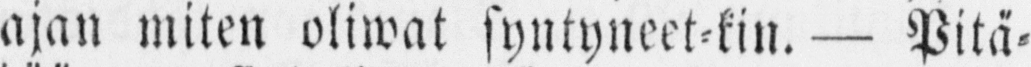ajan miten oliwat syntyneet-kin. — Pitä-
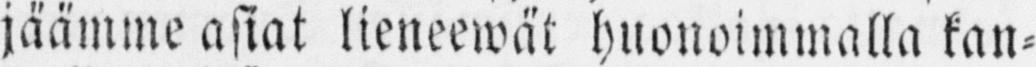jäämme asiat lieneewät huonoimmalla kan-
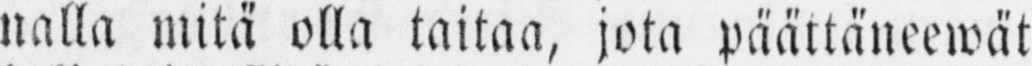nalla mitä olla taitaa, jota päättäneewät
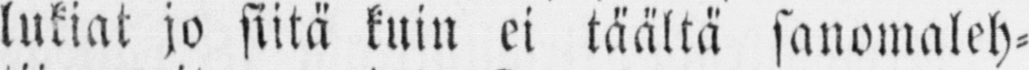lukiat jo siitä kuin ei täältä sanomaleh-
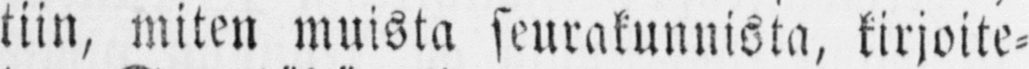tiin, miten muista seurakunnista, kirjoite-
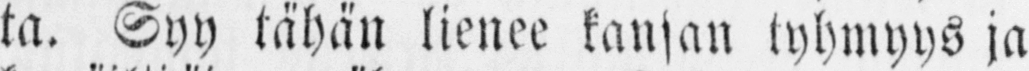ta. Syy tähän lienee kansan tyhmyys ja
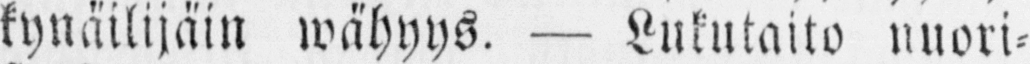kynäilijäin wähyys. — Lukutaito nnori-
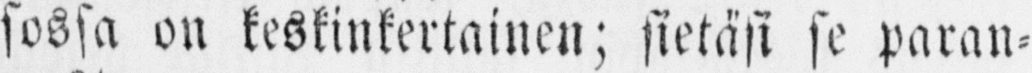sossa on keskinkertainen; sietäsi se paran-
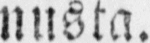nusta.
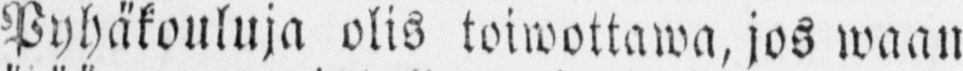Pyhäkouluja olis toiwottawa, jos waan
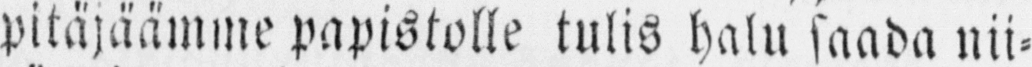pitäjäämme papistolle tulis halu saada nii-
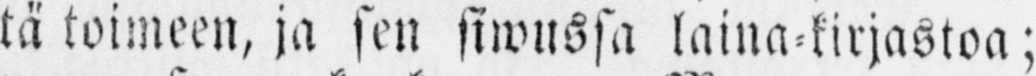tä toimeen, ja sen siwussa laina kirjastoa;
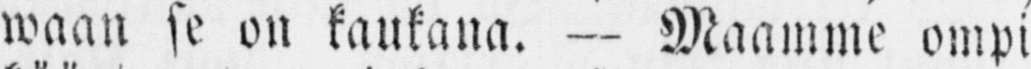waan se on kaukana. — Maamme ompi
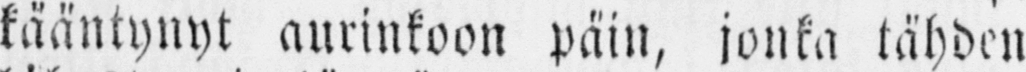kääntynyt aurinkoon päin, jonka tähden
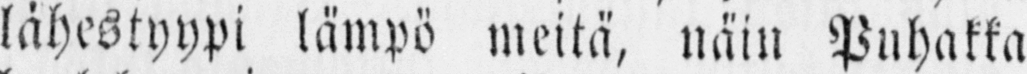lähestyypi lämpö meitä, näin Puhakka
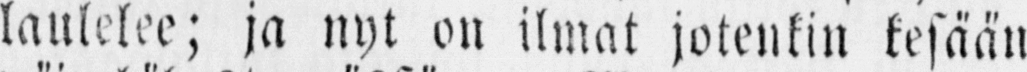laulelee; ja nyt on ilmat jotenkin kesään
